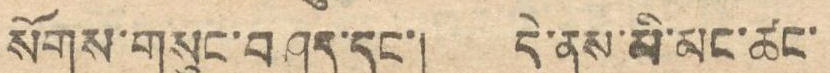སོགས་གསུང་བཤད་དང་། དེ་ནས་མི་མང་ཚང་
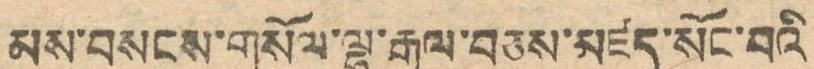མས་བསངས་གསོལ་ལྷ་རྒྱལ་བཅས་མཛད་སོང་བའི
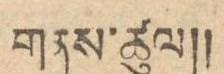གནས་ཚུལ།།
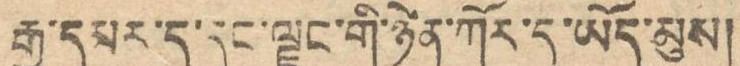རྒྱ་དམར་ད་དུང་ལྗང་གི་ཉེན་ཀོར་དུ་ཡོད་མུས།
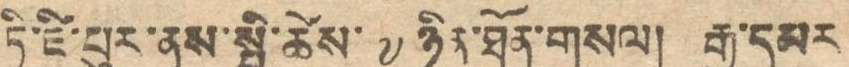ཏི་ཛི་པུར་ནས་སྤྱི་ཚེས་ ༧ ཉིན་ཐོན་གསལ། རྒྱ་དམར
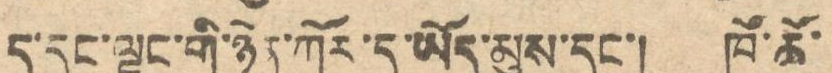ད་དུང་ལྗང་གི་ཉེར་ཀོར་དུ་ཡོད་མུས་དང་། ཁོ་ཚོ་
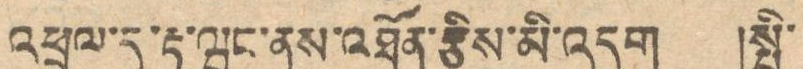འཕྲལ་དུ་རྟ་ཝང་ནས་འཐོན་རྩིས་མི་འདུག །སྤྱི་
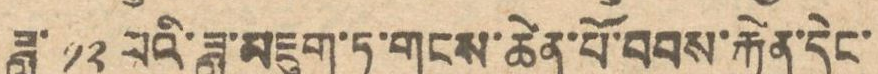ཟླ་ ༡༢ པའི་ཟླ་མཇུག་ཏུ་གངས་ཆེན་པོ་བབས་རྐྱེན་དེང་
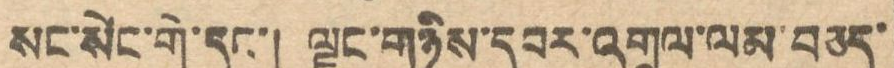སང་སེང་གེ་དང་། ལྗང་གཉིས་དབར་འགྲུལ་ལམ་བཅད་
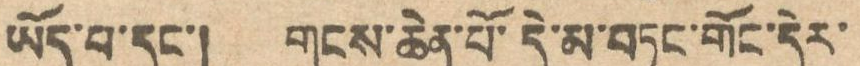ཡོད་པ་དང་། གངས་ཆེན་པོ་དེ་མ་བཏང་གོང་དེར་
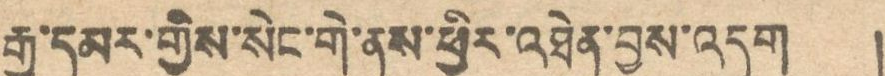རྒྱ་དམར་གྱིས་སེང་གེ་ནས་ཕྱིར་འཐེན་བྱས་འདུག །
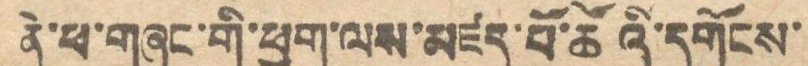ནེ་ཕ་གཞུང་གི་ཕྱག་ལས་མཛད་པོ་ཚོའི་དགོངས་
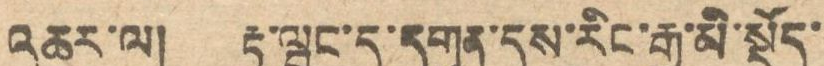འཆར་ལ། རྟ་ཝང་དུ་དགུན་དུས་རིང་རྒྱ་མི་སྡོད་
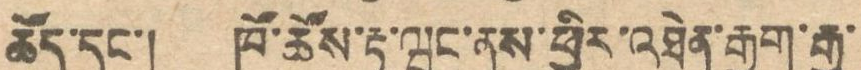ཚོད་དང་། ཁོ་ཚོས་རྟ་ཝང་ན་ཕྱིར་འཐེན་རྒྱག་རྒྱུ་
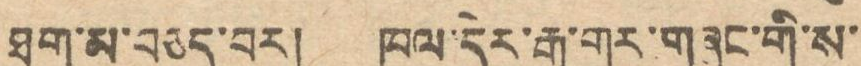ཐག་མ་བཅད་བར། ཁུལ་དེར་རྒྱ་གར་གཞུང་གི་ས་
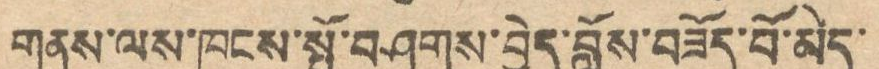གནས་ལས་ཁུངས་སྤོ་བཤུགས་བྱེད་བློས་བཟོད་པོ་མེད་
